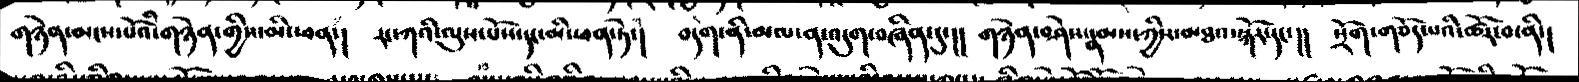གཉེན་མངས་པོའི་གཉེན་གྱིས་མི་ཕན་།  རང་ཀའི་ལུས་པོས་དང་མི་ཕན་ཏེ་།  བདག་ནི་མལ་ན་འདུག་བཞིན་དུ་།།  གཉེན་བཤེས་རྣམས་ཀྱིས་མཐའ་སྐོར་དང་།།  སྲོག་གཅོད་པའི་ཚོར་བ་ནི་།
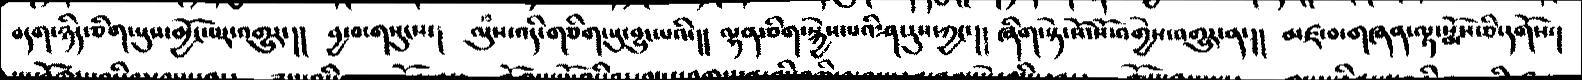བདག་ཉིད་ཅིག་པས་མྱོར་པར་འགྱུར་།།  བྱ་བ་གསུངས་།  ལུས་འདི་གཅིག་པུ་བྱུང་པའི།།  ལྷན་ཅིག་སྐྱེས་པའི་ཤ་རུས་ཀྱང་།།  ཞིག་སྟེ་སོ་སོ་འགྱེས་འགྱུར་ན་།།  མཛ་བ་གཞན་ལྟ་སྨོས་ཅི་དགོས་།
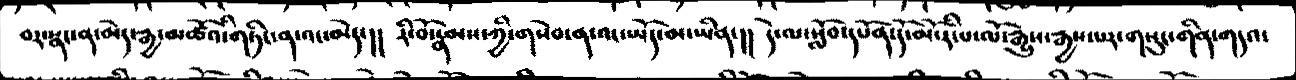བར་སྣང་ན་མེད་རྒྱ་མཚོའི་གཏིང་ན་འང་མེད་།།  རི་བོ་རྣམས་ཀྱི་གསེབ་ན་འང་ཡོད་མ་ཡིན་།།  དེ་ལ་སློབ་དཔོན་དོ་མོ་རི་པ་ལོ་རྒྱུས་རྒྱས་པར་གསུང་གིན་གདའ་
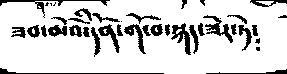ཟབ་མོའི་དོན་གོ་བ་སྐད་ཟེར་ཏེ༴
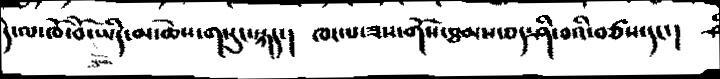དེ་ལ་ཁོ་བོ་ཡིད་མ་ཆེས་གསུང་སྐད་།   ཁང་པ་ཟས་གོས་ཐམས་ཅད་ཤི་བའི་བཙས་དང་།
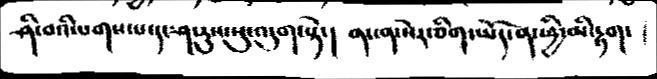ཤི་བའི་པགས་པ་དང་ཤ་རུས་སུ་འདུག་སྟེ་།  ནང་ན་སེར་ཅིག་ཡོད་ན་ཕྱི་མི་རྟག་
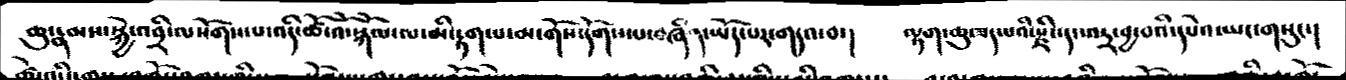ཆུ་རྣམས་སྐྱེ་འབྲི་ལསོགས་པ་འདི་ཚེ་འོ་སྐོལ་ལ་མི་རྟག་པ་མ་གོས་པ་བཞིན་ཡོད་པར་གདའ་བ་།    ལྟག་ཆུ་ཟད་པའི་སྫིང་དང་འདྲ་བྱ་བའི་དཔེའ་ཡང་གསུང་།
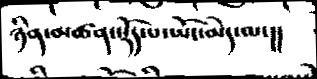ཉིན་མཚན་སྡོད་པ་ཡོང་མིན་ལ་།།
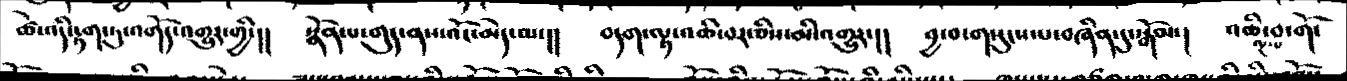ཚེ་འདི་རྟག་ཏུ་འགོད་འགྱུར་གྱི་།།    སྣོན་པ་གུད་ནས་འོང་མེད་ལ་།།     བདག་ལྟ་འཆི་བར་ཅིས་མི་འགྱུར་།།   བྱ་བ་གསུངས་པ་བཞིན་དུ་སྒོམ་།    འཆི་བ་གོ་
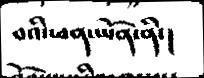བའི་ཕན་ཡོན་ནི་།
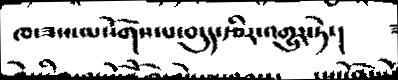ཁ་ཟས་ལསོགས་པ་བདུད་རྩིར་འགྱུར་ཏེ་།   ཟ
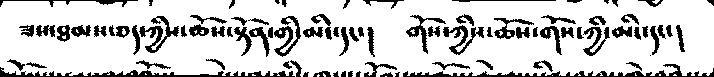ཟས་ཐམས་ཅད་ཀྱིས་ཆོས་སྟོན་གྱི་མིང་དང་།  གོས་ཀྱིས་ཆོས་གོས་ཀྱི་མིང་དང་།
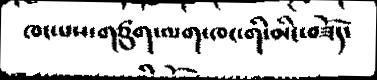ཁང་པས་གཙུག་ལག་ཁང་གི་མིང་བཟོད་
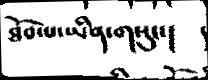ཐོབ་པ་ཡིན་གསུང་།
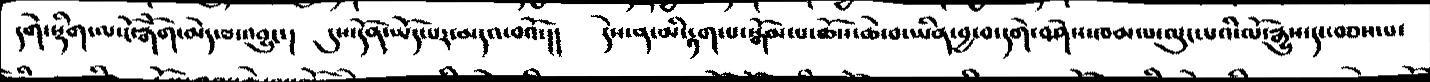དགེ་སྡིག་ལ་ངོ་རྒོག་མེད་པ་འབྱུང་།  དུས་དོན་ཡོད་པར་མདའ་བའོ་།།  དེས་ན་མི་རྟག་པ་སྒོམ་པ་ཆོས་ཆེ་བ་ཡིན་བྱ་བ་དགེ་བཤེས་ཁམ་པ་ལུང་པའི་ལོ་རྒྱུས་དང་བཅས་པ་
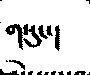གསུང་།
